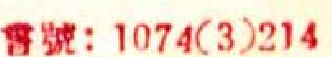書號：1074(3)214
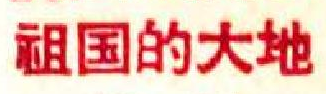祖国的大地
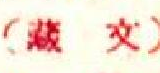（藏 文）
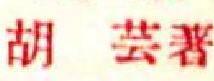胡 芸著
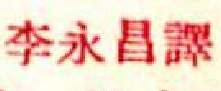李永昌譯
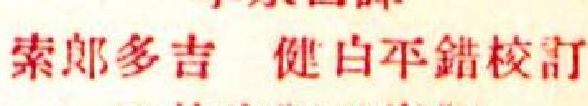索郎多吉 健白平錯校訂
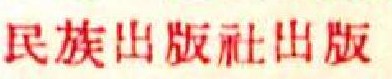民族出版社出版
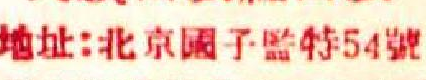地址：北京國子監特54號
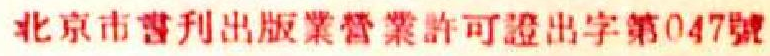北京市書刊出版業營業許可證出字第047號
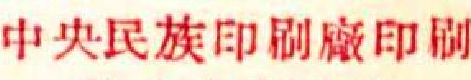中央民族印刷廠印刷
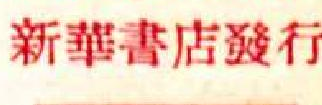新華書店發行
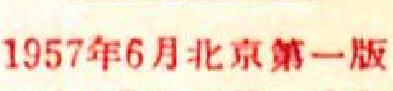1957年6月北京第一版
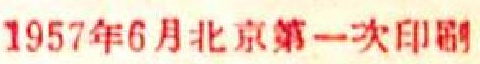1957年6月北京第一次印刷
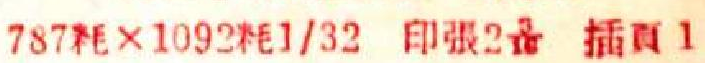787耗×1092耗1/32 印張23/16 插頁1
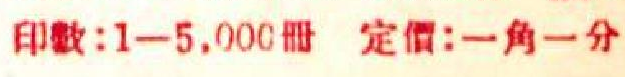印數：1-5,000冊 定價：一角一分
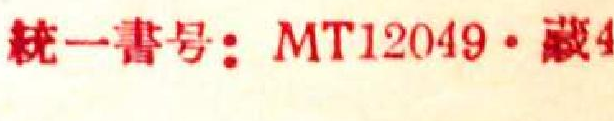統一書號：MT12049・藏4
